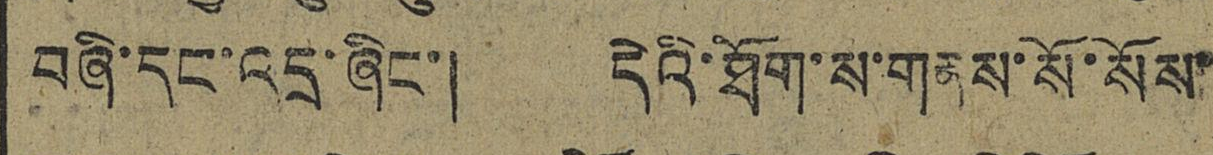བཞི་དང་འདྲ་ཞིང་། དེའི་ཐོག་ས་གནས་སོ་སོས་
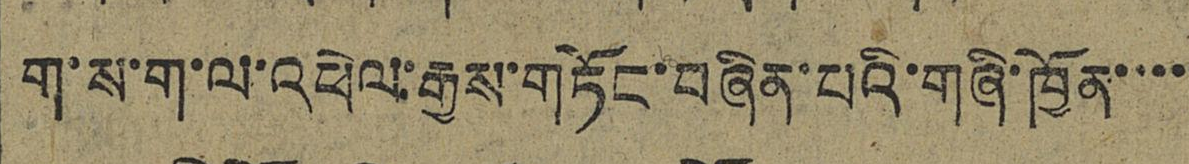ག་ས་ག་ལ་འཕེལ་རྒྱས་གཏོང་བཞིན་པའི་གཞི་ཁྱོན་་་་
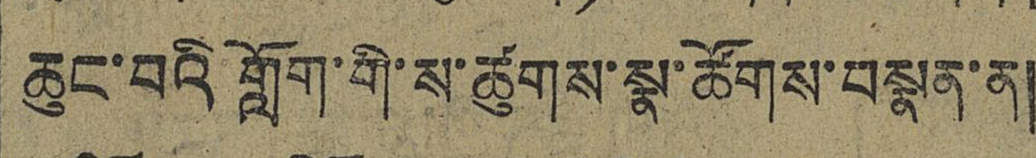ཆུང་བའི་གློག་གི་ས་ཚུགས་སྣ་ཚོགས་བསྣན་ན།
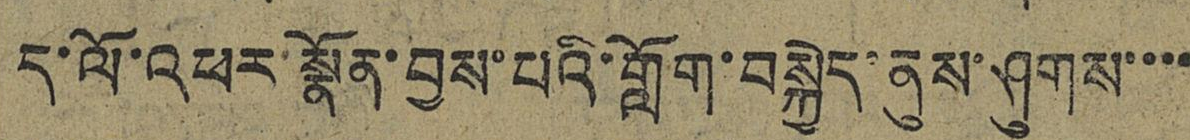ད་ལོ་འཕར་སྣོན་བྱས་པའི་གློག་བསྐྱེད་ནུས་ཤུགས་་་་
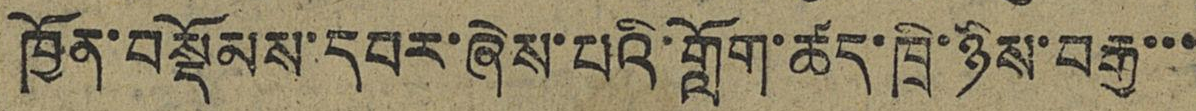ཁྱོན་བསྡོམས་དབར་ཞེས་པའི་གློག་ཚད་ཁྲི་ཉིས་བརྒྱ་་་
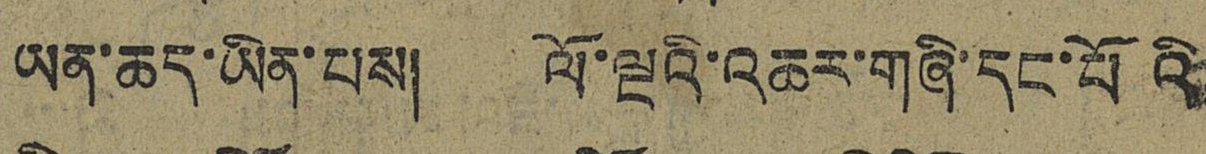ཡན་ཆད་ཡིན་པས། ལོ་ལྔའི་འཆར་གཞི་དང་པོའི་
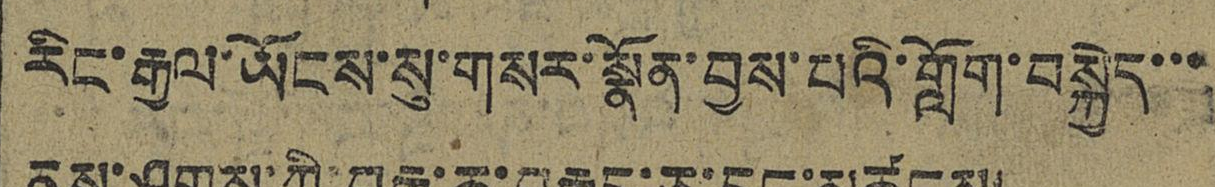རིང་རྒྱལ་ཡོངས་སུ་གསར་སྣོན་བྱས་པའི་གློག་བསྐྱེད་་་
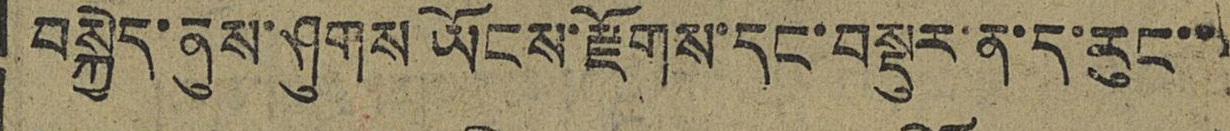བསྐྱེད་ནུས་ཤུགས ཡོངས་རྫོགས་དང་བསྡུར་ན་ད་རུང་་་
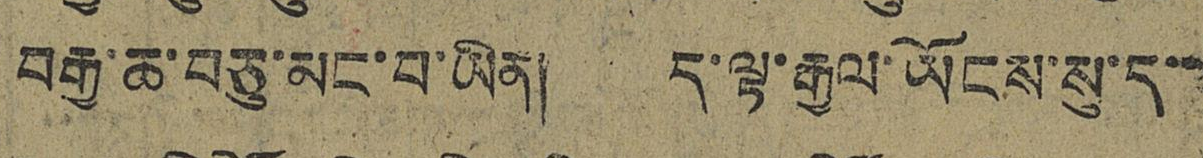བརྒྱ་ཆ་བཅུ་མང་བ་ཡིན། ད་ལྟ་རྒྱལ་ཡོངས་སུ་ད་་
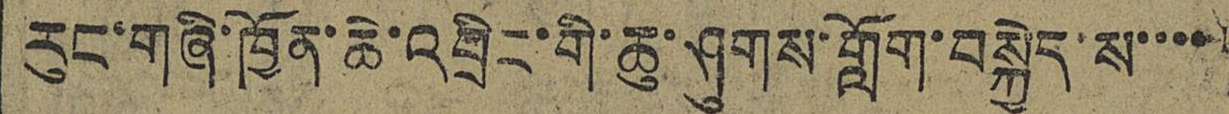རུང་གཞི་ཁྱོན་ཆེ་འབྲིང་གི་ཆུ་ཤུགས་གློག་བསྐྱེད་ས་་་་་
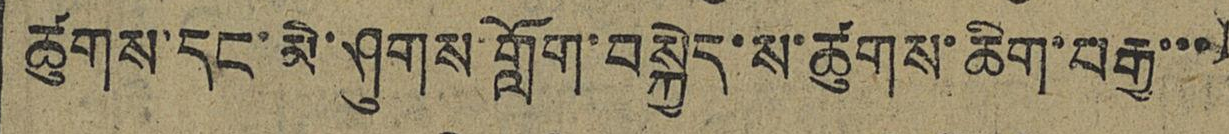ཚུགས་དང་མེ་ཤུགས་གློག་བསྐྱེད་ས་ཚུགས་ཆིག་བརྒྱ་་་་
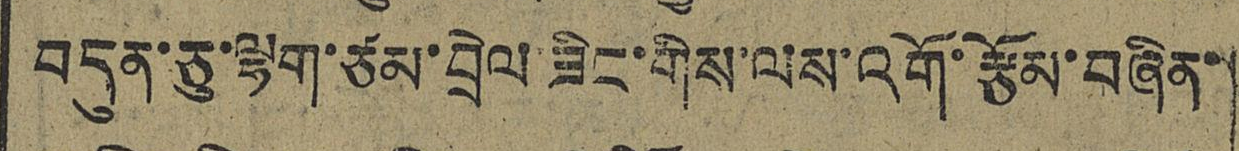བདུན་ཅུ་ལྷག་ཙམ་བྲེལ་ཟིང་གིས་ལས་འགོ་རྩོམ་བཞིན་
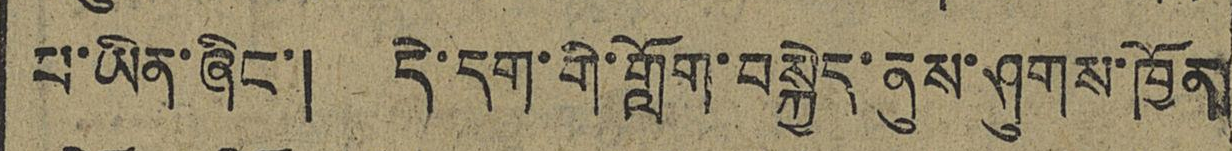པ་ཡིན་ཞིང་། དེ་དག་གི་གློག་བསྐྱེད་ནུས་ཤུགས་ཁྱོན
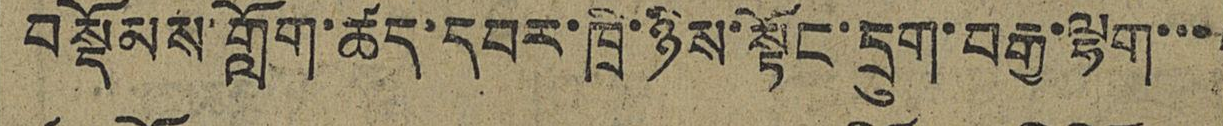བསྡོམས་གློག་ཚད་དབར་ཁྲི་ཉིས་སྟོང་དྲུག་བརྒྱ་ལྷག་་་
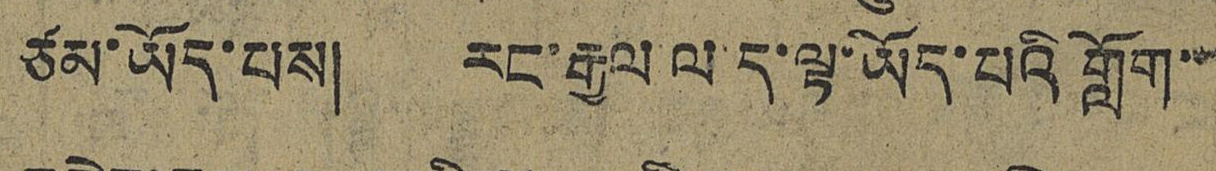ཙམ་ཡོད་པས། རང་རྒྱལ་ལ་ད་ལྟ་ཡོད་པའི གློག་་
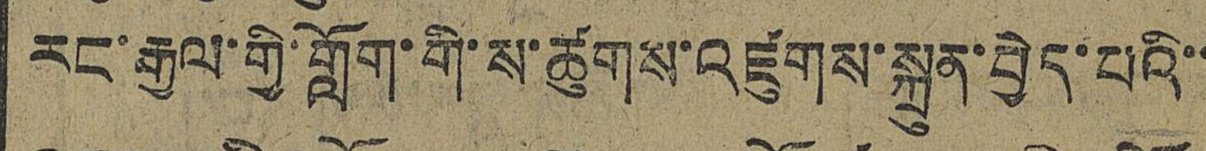རང་རྒྱལ་གྱི་གློག་གི་ས་ཚུགས་འཛུགས་སྐྲུན་བྱེད་པའི་་
